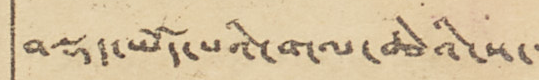བསྡད་ཡོད་པའི་གལ་ཆེའི་ས་་་
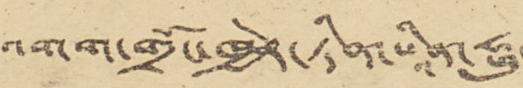འགག་གྲོང་ཁྱེར་ཏིན་པཱིན་ཧྥུ་
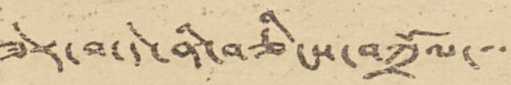ཟེར་བ་དེ་ནི་བཅིངས་བཀྲོལ་་་་
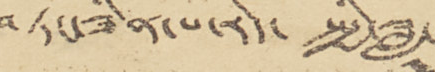བཏང་ཟིན་པ་རེད་ སྤྱི་ཟླ་
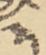༣
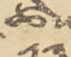ཚེས་
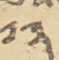༡༣
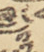༡༡
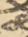ཚེས་
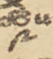༩
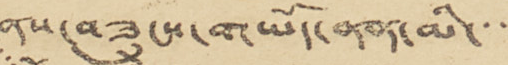ནས་བཟུངས་གཡོད་ནན་མི་་་
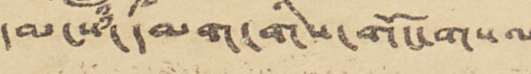དམངས་དམག་གིས་གོང་གསལ་ས་འགག་དེར་ཕར་རྒོལ་བྱས་ནས་ཟླ་བ་
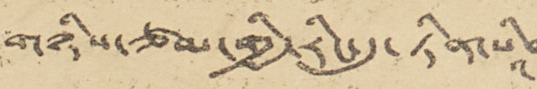གཉིས་ཙམ་གྱི་རིང་དུ་ཏིན་པཱིན་ཧྥུ་ལ་ཡོད་པའི་དགྲ་བོའི་རྐང་དམག་་་་་
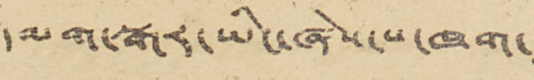དམག་སྒར་ཡིང་ཞེས་པ་ཁག་བཅུ་བདུན་དང་ མེས་སྒྱོགས་དམག་སྒར་
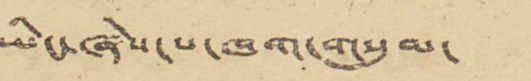ཡིང་ཞེས་པ་ཁག་གསུམ་ བཟོ་དམག་དཔུང་སྡེ་ཁག་ཁ་ཤས་བཅས་་
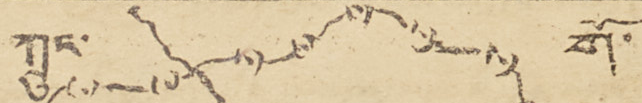ཀྲུང་གོ་
